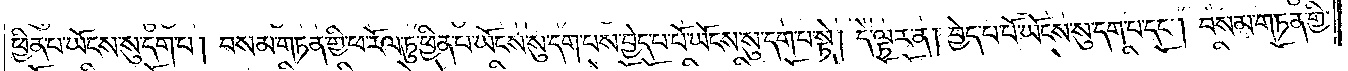ཕྱིན་པ་ཡོངས་སུ་དག་པ། བསམ་གཏན་གྱི་ཕ་རོལ་ཏུ་ཕྱིན་པ་ཡོངས་སུ་དག་པས་བྱེད་པ་པོ་ཡོངས་སུ་དག་པ་སྟེ། དེ་ལྟར་ན། བྱེད་པ་པོ་ཡོངས་སུ་དག་པ་དང༌། བསམ་གཏན་གྱི་
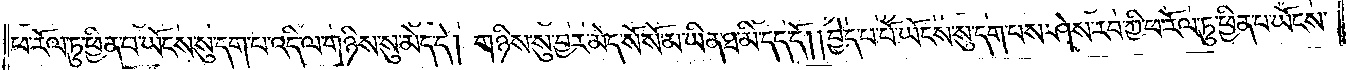ཕ་རོལ་ཏུ་ཕྱིན་པ་ཡོངས་སུ་དག་པ་འདི་ལ་གཉིས་སུ་མེད་དེ། གཉིས་སུ་བྱར་མེད་སོ་སོ་མ་ཡིན་ཐ་མི་དད་དོ། །བྱེད་པ་པོ་ཡོངས་སུ་དག་པས་ཤེས་རབ་ཀྱི་ཕ་རོལ་ཏུ་ཕྱིན་པ་ཡོངས་
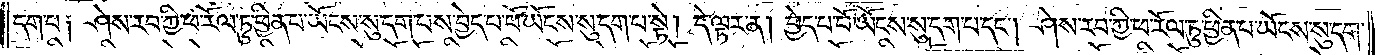སུ་དག་པ༑ ཤེས་རབ་ཀྱི་ཕ་རོལ་ཏུ་ཕྱིན་པ་ཡོངས་སུ་དག་པས་བྱེད་པ་པོ་ཡོངས་སུ་དག་པ་སྟེ། དེ་ལྟར་ན། བྱེད་པ་པོ་ཡོངས་སུ་དག་པ་དང༌། ཤེས་རབ་ཀྱི་ཕ་རོལ་ཏུ་ཕྱིན་པ་ཡོངས་སུ་དག་
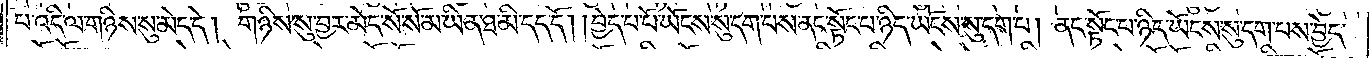པ་འདི་ལ་གཉིས་སུ་མེད་དེ། གཉིས་སུ་བྱར་མེད་སོ་སོ་མ་ཡིན་ཐ་མི་དད་དོ། །བྱེད་པ་པོ་ཡོངས་སུ་དག་པས་ནང་སྟོང་པ་ཉིད་ཡོངས་སུ་དག་པ། ནང་སྟོང་པ་ཉིད་ཡོངས་སུ་དག་པས་བྱེད་
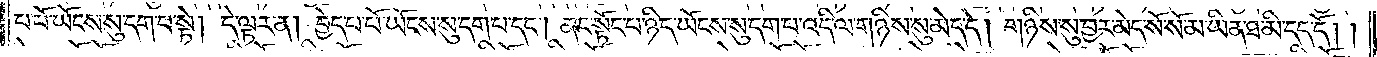པ་པོ་ཡོངས་སུ་དག་པ་སྟེ། དེ་ལྟར་ན། བྱེད་པ་པོ་ཡོངས་སུ་དག་པ་དང༌། ནང་སྟོང་པ་ཉིད་ཡོངས་སུ་དག་པ་འདི་ལ་གཉིས་སུ་མེད་དེ། གཉིས་སུ་བྱར་མེད་སོ་སོ་མ་ཡིན་ཐ་མི་དད་དོ། །
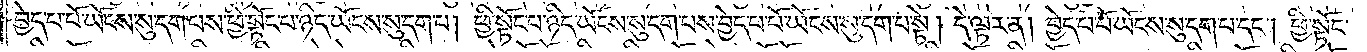བྱེད་པ་པོ་ཡོངས་སུ་དག་པས་ཕྱི་སྟོང་པ་ཉིད་ཡོངས་སུ་དག་པ། ཕྱི་སྟོང་པ་ཉིད་ཡོངས་སུ་དག་པས་བྱེད་པ་པོ་ཡོངས་སུ་དག་པ་སྟེ། དེ་ལྟར་ན། བྱེད་པ་པོ་ཡོངས་སུ་དག་པ་དང༌། ཕྱི་སྟོང་
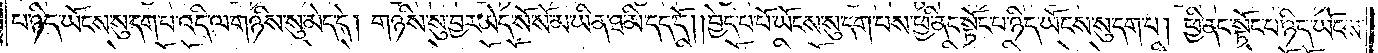པ་ཉིད་ཡོངས་སུ་དག་པ་འདི་ལ་གཉིས་སུ་མེད་དེ། གཉིས་སུ་བྱར་མེད་སོ་སོ་མ་ཡིན་ཐ་མི་དད་དོ༑ །བྱེད་པ་པོ་ཡོངས་སུ་དག་པས་ཕྱི་ནང་སྟོང་པ་ཉིད་ཡོངས་སུ་དག་པ། ཕྱི་ནང་སྟོང་པ་ཉིད་ཡོངས་
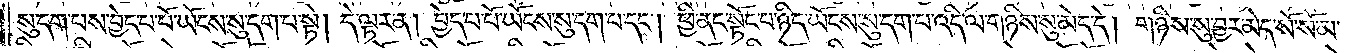སུ་དག་པས་བྱེད་པ་པོ་ཡོངས་སུ་དག་པ་སྟེ། དེ་ལྟར་ན། བྱེད་པ་པོ་ཡོངས་སུ་དག་པ་དང༌། ཕྱི་ནང་སྟོང་པ་ཉིད་ཡོངས་སུ་དག་པ་འདི་ལ་གཉིས་སུ་མེད་དེ། གཉིས་སུ་བྱར་མེད་སོ་སོ་མ་
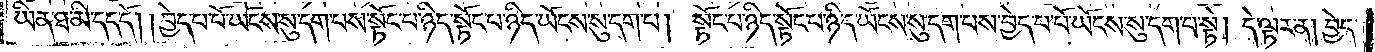ཡིན་ཐ་མི་དད་དོ། །བྱེད་པ་པོ་ཡོངས་སུ་དག་པས་སྟོང་པ་ཉིད་སྟོང་པ་ཉིད་ཡོངས་སུ་དག་པ། སྟོང་པ་ཉིད་སྟོང་པ་ཉིད་ཡོངས་སུ་དག་པས་བྱེད་པ་པོ་ཡོངས་སུ་དག་པ་སྟེ། དེ་ལྟར་ན། བྱེད་
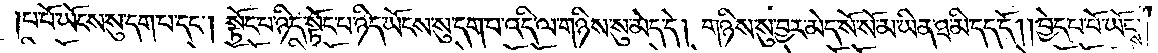པ་པོ་ཡོངས་སུ་དག་པ་དང༌། སྟོང་པ་ཉིད་སྟོང་པ་ཉིད་ཡོངས་སུ་དག་པ་འདི་ལ་གཉིས་སུ་མེད་དེ། གཉིས་སུ་བྱར་མེད་སོ་སོ་མ་ཡིན་ཐ་མི་དད་དོ། །བྱེད་པ་པོ་ཡོངས་
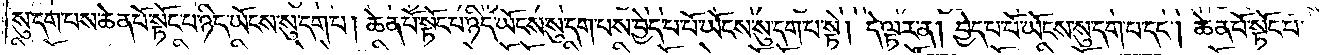སུ་དག་པས་ཆེན་པོ་སྟོང་པ་ཉིད་ཡོངས་སུ་དག་པ། ཆེན་པོ་སྟོང་པ་ཉིད་ཡོངས་སུ་དག་པས་བྱེད་པ་པོ་ཡོངས་སུ་དག་པ་སྟེ། དེ་ལྟར་ན། བྱེད་པ་པོ་ཡོངས་སུ་དག་པ་དང༌། ཆེན་པོ་སྟོང་པ་
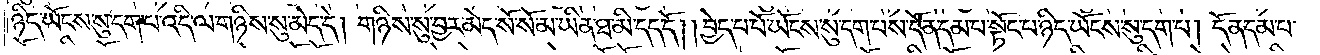ཉིད་ཡོངས་སུ་དག་པ་འདི་ལ་གཉིས་སུ་མེད་དེ། གཉིས་སུ་བྱར་མེད་སོ་སོ་མ་ཡིན་ཐ་མི་དད་དོ། །བྱེད་པ་པོ་ཡོངས་སུ་དག་པས་དོན་དམ་པ་སྟོང་པ་ཉིད་ཡོངས་སུ་དག་པ། དོན་དམ་པ་
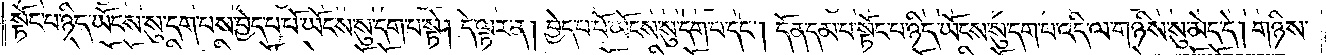སྟོང་པ་ཉིད་ཡོངས་སུ་དག་པས་བྱེད་པ་པོ་ཡོངས་སུ་དག་པ་སྟེ། དེ་ལྟར་ན། བྱེད་པ་པོ་ཡོངས་སུ་དག་པ་དང༌། དོན་དམ་པ་སྟོང་པ་ཉིད་ཡོངས་སུ་དག་པ་འདི་ལ་གཉིས་སུ་མེད་དེ། གཉིས་
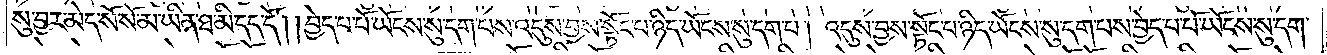སུ་བྱར་མེད་སོ་སོ་མ་ཡིན་ཐ་མི་དད་དོ། །བྱེད་པ་པོ་ཡོངས་སུ་དག་པས་འདུས་བྱས་སྟོང་པ་ཉིད་ཡོངས་སུ་དག་པ། འདུས་བྱས་སྟོང་པ་ཉིད་ཡོངས་སུ་དག་པས་བྱེད་པ་པོ་ཡོངས་སུ་དག་
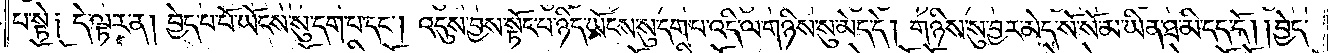པ་སྟེ༑ དེ་ལྟར་ན། བྱེད་པ་པོ་ཡོངས་སུ་དག་པ་དང༌། འདུས་བྱས་སྟོང་པ་ཉིད་ཡོངས་སུ་དག་པ་འདི་ལ་གཉིས་སུ་མེད་དེ། གཉིས་སུ་བྱར་མེད་སོ་སོ་མ་ཡིན་ཐ་མི་དད་དོ། །བྱེད་
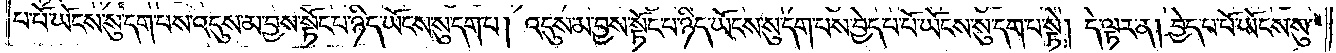པ་པོ་ཡོངས་སུ་དག་པས་འདུས་མ་བྱས་སྟོང་པ་ཉིད་ཡོངས་སུ་དག་པ། འདུས་མ་བྱས་སྟོང་པ་ཉིད་ཡོངས་སུ་དག་པས་བྱེད་པ་པོ་ཡོངས་སུ་དག་པ་སྟེ། དེ་ལྟར་ན། བྱེད་པ་པོ་ཡོངས་སུ་
